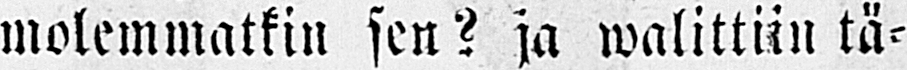molemmatkin sen? ja walittiin tä-
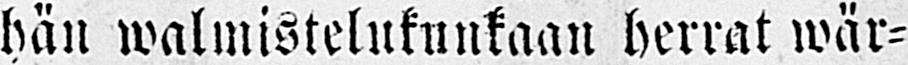hän walmistelukunkaan herrat wär-
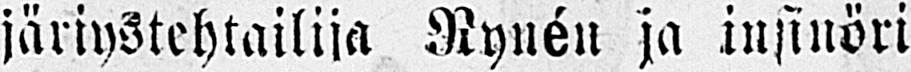järiystehtailija Rynén ja insinöri
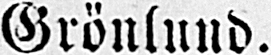Grönlund.
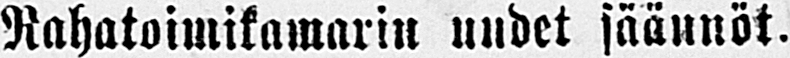Rahatoimikamarin uudet säännöt.
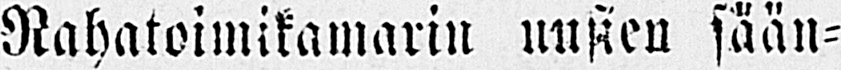Rahatoimikamarin uusien sään-
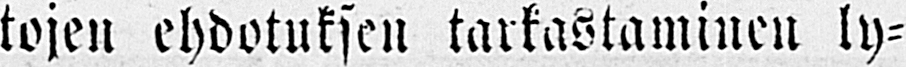töjen ehdotuksen tarkastaminen ly-
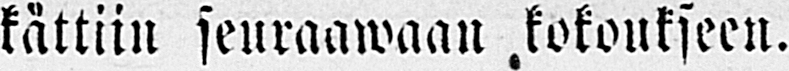kättiin seuraamaan kokoukseen.
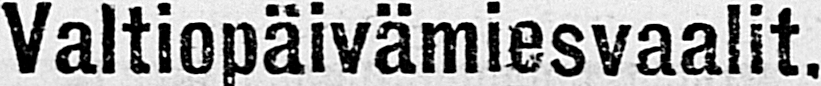Valtiopäivämiesvaalit.
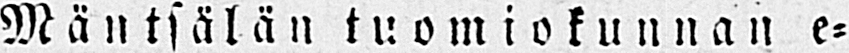Mäntsälän tuomiokunnan e-
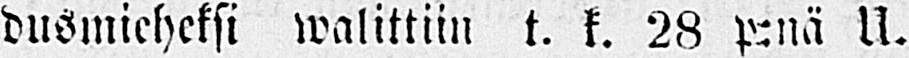dusmieheksi walittiin t. k. 28 p:nä U.
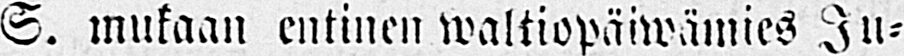S. mukaan entine waltiopäiwämies Ju-
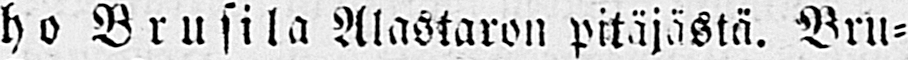ho Brusila Alastaron pitäjästä. Bru-
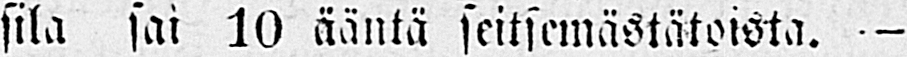sila sai 10 ääntä seitsemästätoista. -
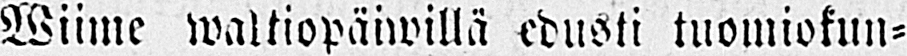Wiime waltiopänwillä edusti tuomiokun-
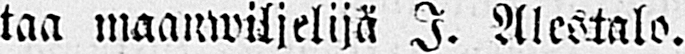taa maanwiljelijä I. Alestalo.
